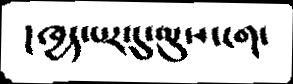།ཁྱད་པར་དུ་ལུས་ངག་
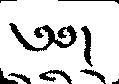༄༅།
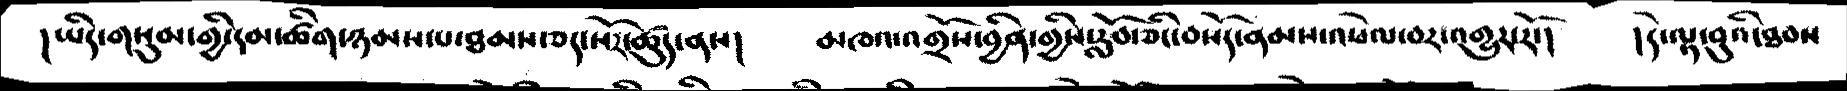།ཡིད་གསུམ་གྱི་དམ་ཚིག་ཉམས་པ་ཐམས་ཅད་སོར་ཚུད་ནས།  མཁའ་འགྲོས་བྱིན་གྱིས་རློབ་ཅིང་བསོད་ནམས་འཕེལ་བར་འགྱུར་རོ་།   །དེ་ལྟ་བུའི་ཐབས
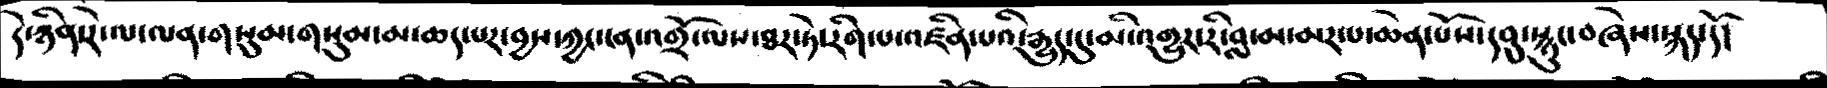དེ་ཉིན་རེ་ལ་ལན་གསུམ་གསུམ་མ་ཆད་པར་བྱས་ཀྱང་ངན་འགྲོ་ལས་ཐར་ཏེ་རིག་པ་འཛིན་པའི་རྒྱུད་དུ་མི་འགྱུར་རི་བླ་མ་མར་པ་ཆེན་པོས་དབུ་སྙུང་བཞེས་སྐད་དོ།
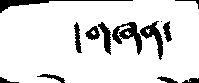།གཞན་
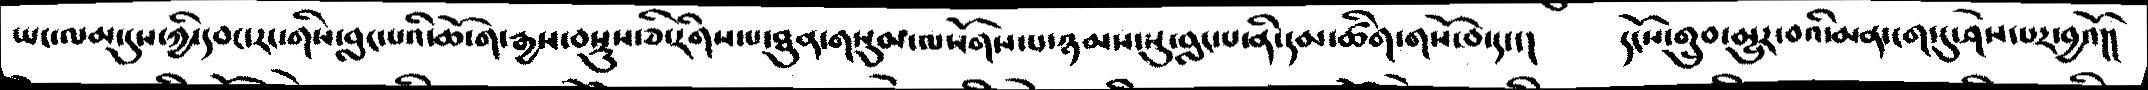ཡང་ལམ་དུས་ཀྱི་དབང་རང་གིས་བླང་པའི་ཆོ་ག་རྒྱས་བསྡུས་ཅི་རིགས་པ་ཐུན་གསུམ་ལསོགས་པ་ཉམས་སུ་བླང་པ་ནི་དམ་ཚིག་གསོ་བ་དང་།   དངོས་གྲུབ་མྱུར་བའི་མན་ངག་དུ་ཤེས་པར་བྱའོ།།
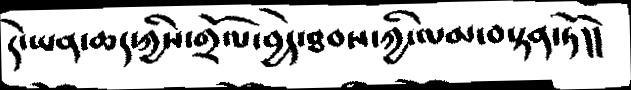དེ་ཡན་ཆད་ཀྱིས་གྲོལ་བྱེད་ཐབས་ཀྱི་ལམ་བསྟན་ཏོ།།
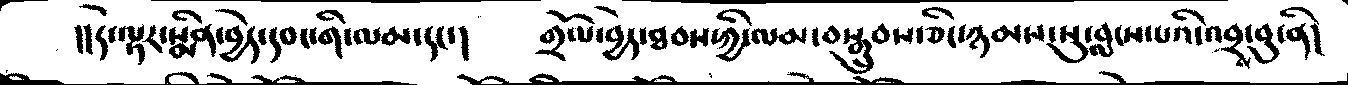།།དེ་ལྟར་སྨིན་བྱེད་དབང་གི་ལམ་དང་།   གྲོལ་བྱེད་ཐབས་ཀྱི་ལམ་བསྒྲུབས་ཅིང་ཉམས་སུ་བླངས་པའི་འབྲས་བུ་ནི།
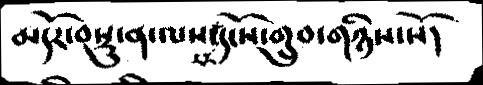མདོར་བསྡུ་ན་ལས་དངོས་གྲུབ་གཉིས་སོ།
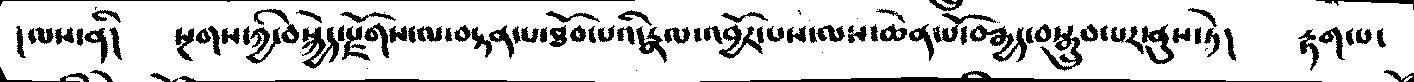།ལས་ནི།  སྔགས་ཀྱི་བསྐྱེད་རྫོགས་ལ་བརྟན་པ་ཐོབ་པའི་རྣལ་འབྱོར་པས་ལས་ཆེན་པོ་བརྒྱད་བསྒྲུབ་པར་ནུས་ཏེ།  རྟག་པ་
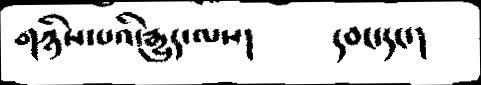གཉིས་པའི་རྒྱུད་ལས།   དབང་དང་།
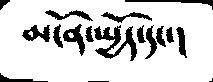མངོན་སྤྱོད་དང་།
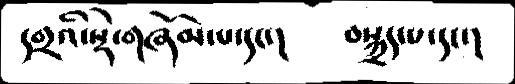དགྲའི་སྡེ་གཞོམ་པ་དང་།   བསྐྲད་པ་དང་།
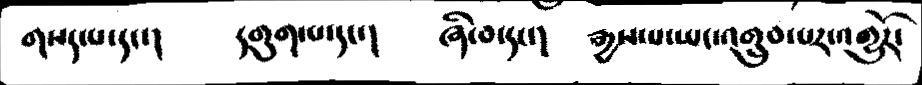གསད་པ་དང་།   དགུག་པ་དང་།   ཞི་བ་དང་།   རྒྱས་པ་ཡང་འགྲུབ་པར་འགྱུརོ་
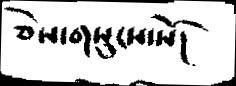ཅེས་གསུངས་སོ།
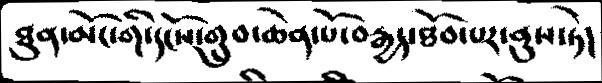ཐུན་མོང་གི་དངོས་གྲུབ་ཆེན་པོ་བརྒྱད་ཐོབ་པར་ནུས་ཏེ།
